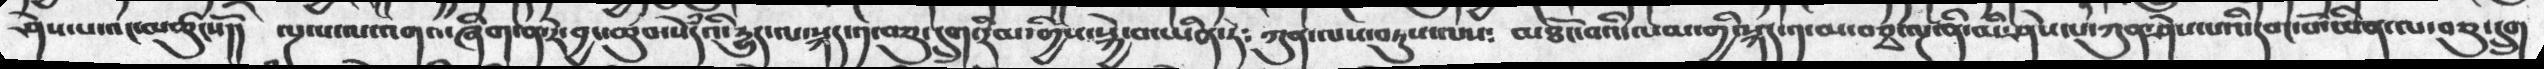ཤེས་པ་འང་མཚུངསོ།། ལྔ་པ་ལ་འགའ་ཞིག་ན་རེ་བྱང་ཆུབ་སེཾདའི་དྱུད་ལ་སྐད་༡་བཅུ་དྲུག་རིམ་གྱིས་སྐྱེ་བ་ཡིན་ཏེ༴   ཀུན་ལས་བཏུས་ལས༴  མཐོང་བའི་ལམ་གྱི་སྐད་༡་མ་བཅྭ་ལྔ་ནི་མི་ཤེས་པ་ཀུན་ཤེས་པའི་དབང་པོ་ཡིན་ལ་བཅུ་དྲུག
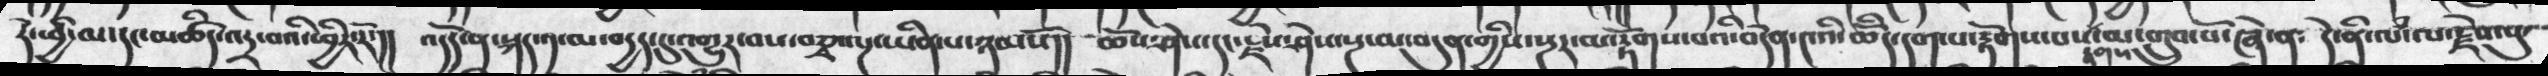ཏེ་ཕྱི་མ་དང་མཚིད་འདྲ་བའི་ཕྱིར་རོ་།།  འདོད་ན་སྐད་༡་མ་བདྱད་དུ་འགྱུར་བས་བཅྭ་ལྔ་ཡིན་ཉམསོ།།  ཆོས་ཤེས་དང་རྗེས་ཤེས་སྔ་མ་བདུན་གྱིས་སྔར་མ་རྟོགས་པའི་བདེན་༤འི་ཆོིད་དག་པ་རྟོགས་པས་རྟགས་མ་གྲུབ་བོ་ཞེ་ན༴  དེ་ནི་ལཾ་ལ་རྗེས་སུ་
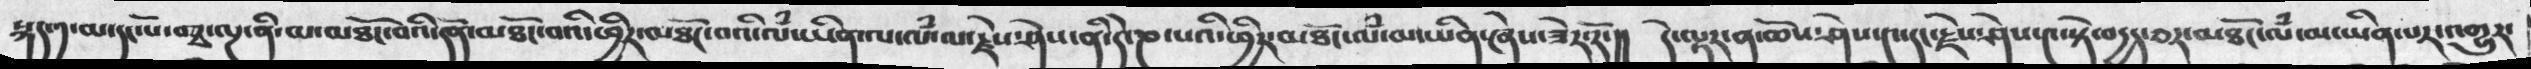སྐད་༡་མ་དང་པོ་བཅྭ་ལྔ་ནི་མ་མཐོང་བའི་དོན་མཐོང་བའི་ཕྱིར་མཐོང་བའི་ལཾ་ཡིན་ལ་རྗེས་ཤེས་ནི་དེ་ཎ་པའི་ཕྱིར་མཐོང་ལཾ་མ་ཡིན་ཞེས་ཟེར་རོ་།། དེ་ལྟ྄ར་ན་ཆོས་ཤེས་༤་རྗེས་ཤེས་༤་སྟེ་བདྱད་བར་མཐོང་ལཾ་མ་ཡིན་པར་འགྱུར་
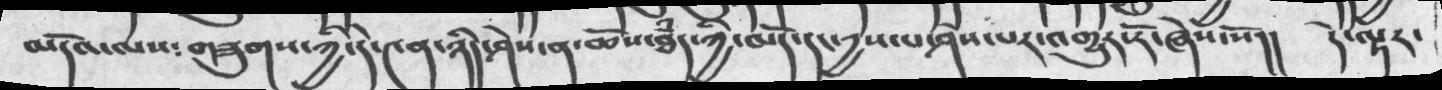མདོའ་ལས༴  གཟུགས་ཀྱི་དེ་༤ན་ཉིད་ཤེས་ན་ཆོས་ཐཾད་ཀྱི་མདོ་དང་དྱས་པ་ཤེས་པར་འགྱུར་རོ་ཞེས་སོ།།   དེ་ལྟར་
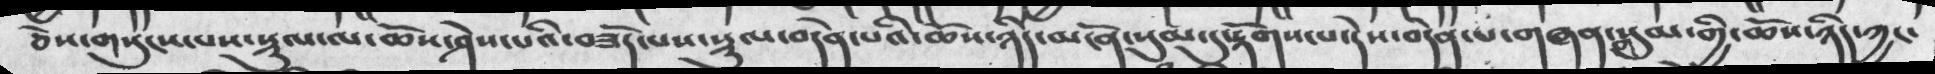ཅེས་གསུངས་པས་སྡུལ་ལ་ཆོས་ཤེས་པའི་བཟོད་པས་སྡུལ་བདེན་པའི་ཆོས་ཉིད་མངོན་སུམ་དུ་རྟོགས་པ་དེས་བདེན་པ་གཞན་གསུམ་གྱི་ཆོས་ཉིད་ཀྱང་
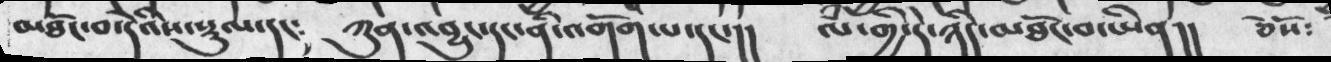མཐོང་བ་དེའིས་སྟུལ་དང༴    ཀུན་འབྱུང་དང་ནི་འགོག་པ་དང་།།   ལཾ་གྱི་དེ་ཉིད་མཐོང་བ་ཡིན།།   ཅེསོ༴
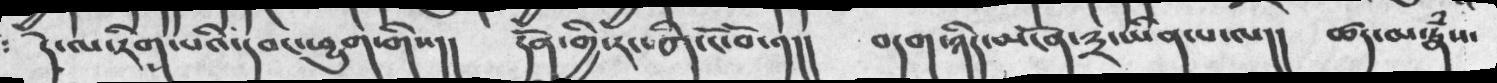དེ་ལ་རིག་པའི་དབང་ཕྱུག་གིས།།   དོན་གྱི་རང་གི་ངོ་བོ་༡།།   བདག་ཉིད་མངོན་༣་ཡིན་པ་ལ།།   ཚད་མ་རྣཾས་
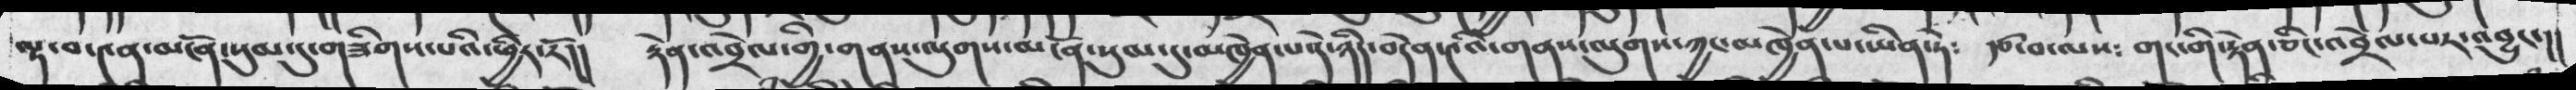ལྟ་བ་༤ན་མངོན་སུམ་དུ་གཟིགས་པའི་ཕྱིར་རོ།།    རྟེན་འབྲེལ་གྱི་གནས་ལུགས་མངོན་སུམ་དུ་མཁྱེན་པ་དེ་ཉིད་བདེན་༤འི་གནས་ལུགས་ཀྱང་མཁྱེན་པ་ཡིན་ཏེ༴   རྩ་བ་ལས༴  གང་གི་རྟེན་ཅིང་འབྲེལ་པར་འབྱུང་།།
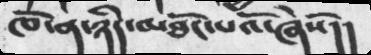ཁོ་ན་ཉིད་མཐོང་པའོ་ཞེསོ།།
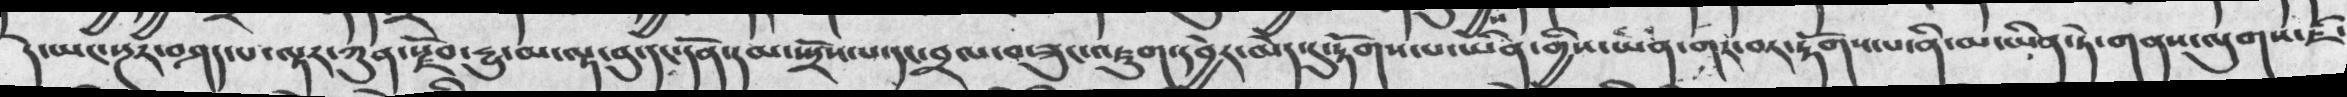དེ་ཡང་སྔར་བཤད་པ་ལྟར་ཀུན་རྫོབ་དྱུ་མ་ལྟ་བུ་དང་དོན་དམ་སྤྲོས་པ་དང་བྲལ་བ་ཟུང་འཇུག་དབྱེར་མེད་དུ་རྟོགས་པ་ཡིན་གྱིས་ཡིན་གང་བར་རྟོགས་པ་ནི་མ་ཡིན་ཏེ་གནས་ལུགས་ཇི་
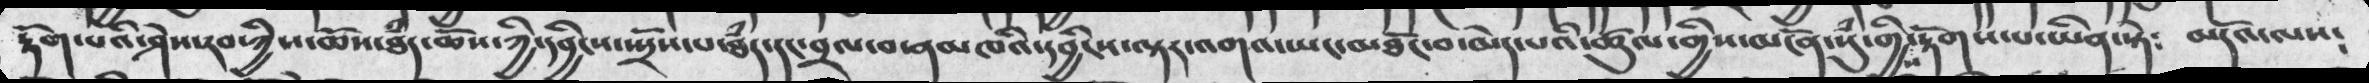རྟོག་པའི་ཤེས་རབ་ཀྱིས་ཆོས་ཐཾད་ཆོས་ཀྱི་དབྱིངས་སྤྲོས་པ་ཐཾད་དང་བྲལ་བ་ནམཁའི་དབྱིངས་ལྟར་འགའ་ཡང་མཐོང་བ་མེད་པའི་ཚུལ་གྱིས་མངོན་སུཾ་གྱིས་རྟོགས་པ་ཡིན་སྟེ༴    མདོའ་ལས༴
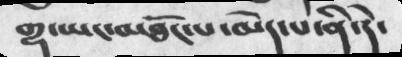གྷ་ཡང་མཐོང་པ་མེད་པ་ནི་དེ་
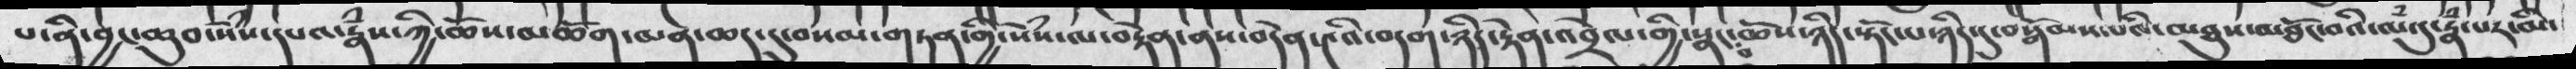པ་ནི་བྱང་ཆུབ་སེཾས་དཔའ་རྣཾས་ཀྱི་ཆོས་མཆོག་མན་ཆད་དུ་བསམ་གཏན་གྱི་སེྃས་ལ་བརྟེན་ནས་བདེན་༤འི་བདག་ཉིད་རྟེན་འབྲེལ་གྱི་སྣང་བ་ཆོས་ཉིད་སྟོང་པ་ཉིད་དུ་བསྒོམས་པའི་མཐུས་མཐོང་བའི་ལཾ་དུ་རྣཾ་པར་མི་
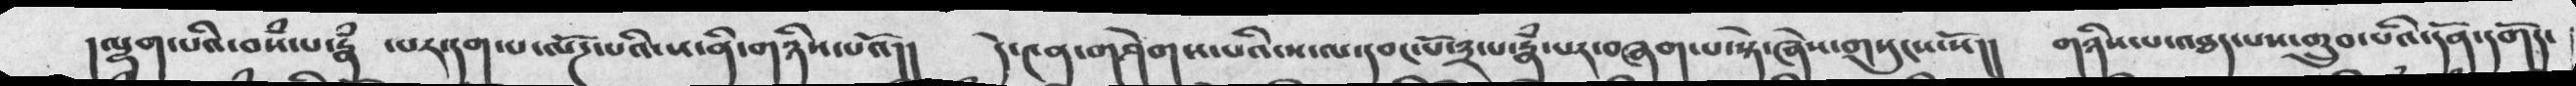།ལྷག་པའི་བསཾ་པ་རྣཾ  ་པར་དག་པ་ལོཌ་པའི་ས་ནི་གཉིས་པའོ།།  དེ་༤ན་གཤེགས་པའི་ས་ལ་དབང་པོ་༣་པ་རྣཾ་པར་བཞག་པ་སྟེ་ཞེས་གསུངས་སོ།། གཉིས་པ་འཐད་པས་གྲུབ་པའི་དོན་དགོད་
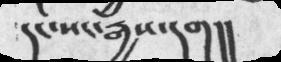དང་སང་རྒྱས་དག།།
